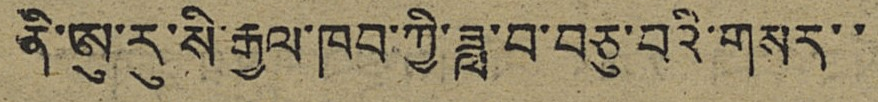ནི་ཨུ་རུ་སི་རྒྱལ་ཁབ་ཀྱི་ཟླ་བ་བཅུ་བའི་གསར་་
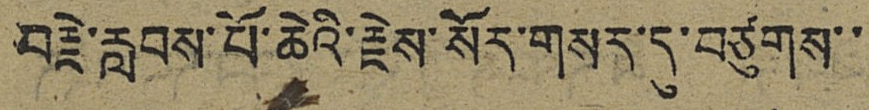བརྗེ་རླབས་པོ་ཆེའི་རྗེས་སོར་གསར་དུ་བཙུགས་་
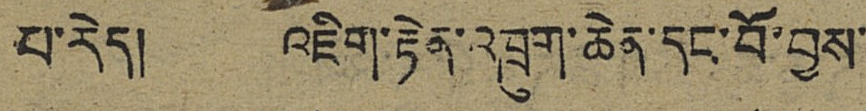པ་རེད། འཇིག་རྟེན་འཁྲུག་ཆེན་དང་བོ་བྱས་
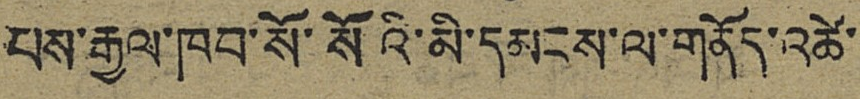པས་རྒྱལ་ཁབ་སོ་སོའི་མི་དམངས་ལ་གནོད་འཚེ་
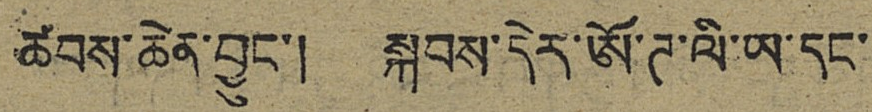ཚབས་ཆེན་བྱུང་། སྐབས་དེར་ཨོ་ཊ་ལི་ཡ་དང་
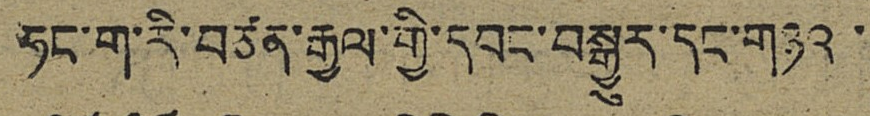ཧང་ག་རི་བཙན་རྒྱལ་གྱི་དབང་བསྒྱུར་དང་གཉའ་
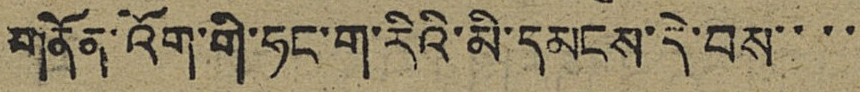གནོན་འོག་གི་ཧང་ག་རིའི་མི་དམངས་དེ་བས་་་་
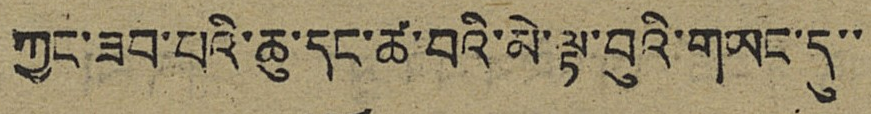ཀྱང་ཟབ་པའི་ཆུ་དང་ཚ་བའི་མེ་ལྟ་བུའི་གཡང་དུ་་
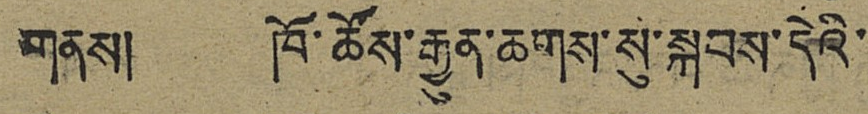གནས། ཁོ་ཚོས་རྒྱུན་ཆགས་སུ་སྐབས་དེའི་
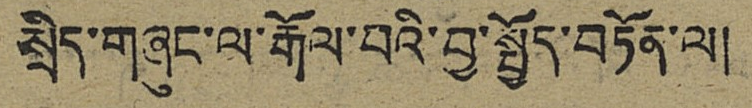སྲིད་གཞུང་ལ་རྒོལ་བའི་བྱ་སྤྱོད་བཏོན་ལ།
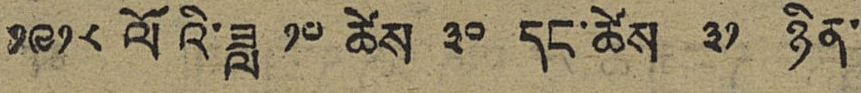༡༩༡༨ ལོའི་ཟླ ༡༠ ཚེས ༣༠ དང་ཚེས ༣༡ ཉིན་
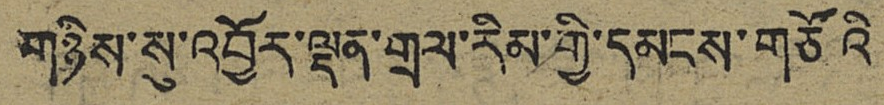གཉིས་སུ་འབྱོར་ལྡན་གྲ་རིམ་གྱི་དམངས་གཙོའི་
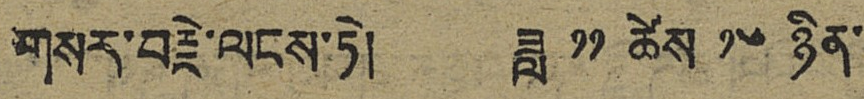གསར་བརྗེ་ལངས་ཏེ། ཟླ ༡༡ ཚེས ༡༦ ཉིན་
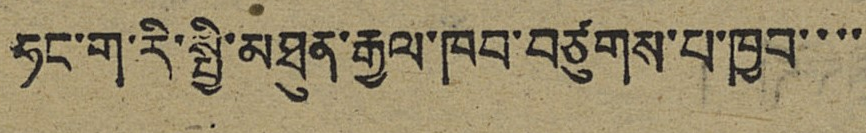ཧང་ག་རི་སྤྱི་མཐུན་རྒྱལ་ཁབ་བཙུགས་པ་ཁྱབ་་་་
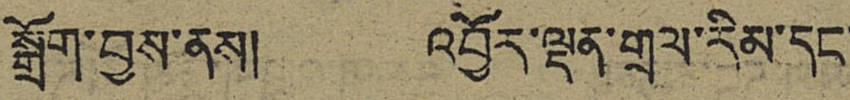སྒྲོག་བྱས་ནས། འབྱོར་ལྡན་གྲལ་རིམ་དང་
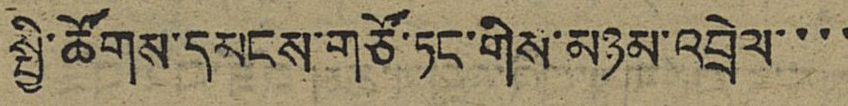སྤྱི་ཚོགས་དམངས་གཙོ་ཏང་གིས་མཉམ་འབྲེལ་་་་
